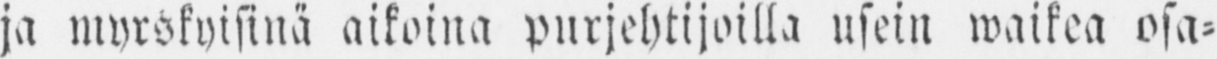ja myrskyisinä aikoina purjehtijoilla usein waikea osa-
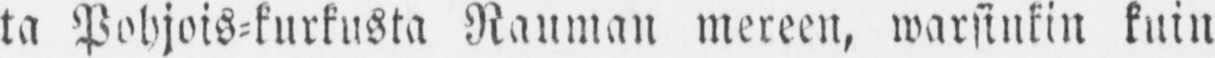ta Pohjois-kurkusta Rauman mereen, warsinkin kuin
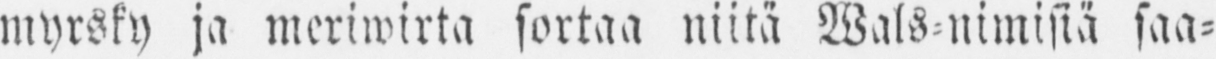myrsky ja meriwirta sortaa niitä Wals-nimisiä saa-
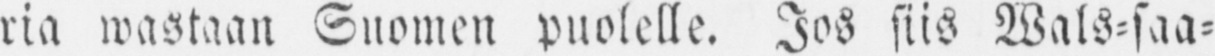ria wastaan Suomen puolelle. Jos siis Wals-saa-
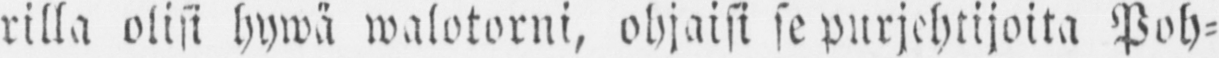rilla olisi hywä walotorni, ohjaisi se purjehtijoita Poh-
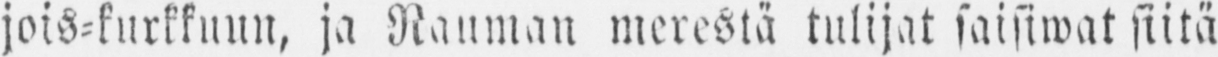jois-kurkkuun, ja Rauman merestä tulijat saisiwat siitä
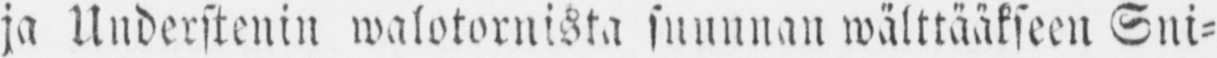ja Understenin walotornista suunnan wälttääkseen Sni-
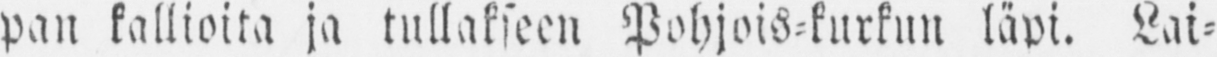pan kallioita ja tullakseen Pohjois-kurkun läpi. Lai-
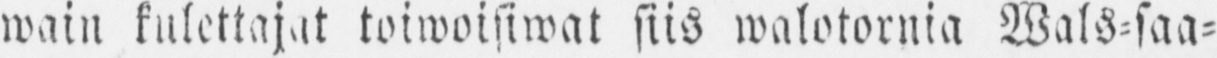wain kulettajat toiwoisiwat siis walotornia Wals-saa-
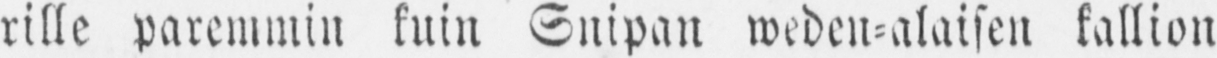rille paremmin kuin Snipan weden-alaisen kallion
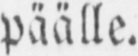päälle.
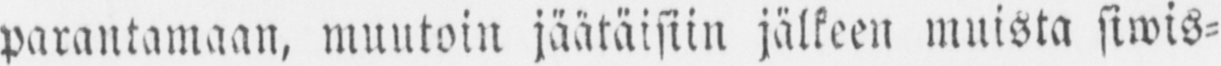parantamaan, muutoin jäätäisiin jälkeen muista siwis-
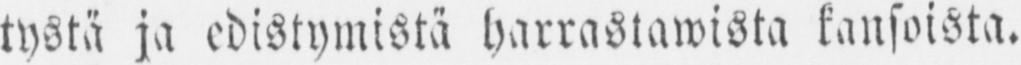tystä ja edistymistä harrastawista kansoista.
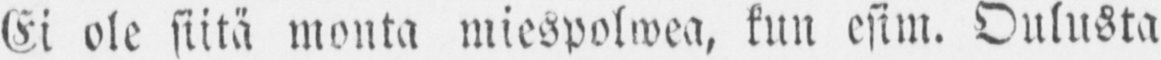Ei ole siitä monta miespolwea, kun esim. Oulusta
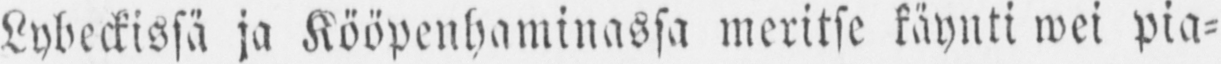Lybeckissä ja Kööpenhaminassa meritse käynti wei pia-
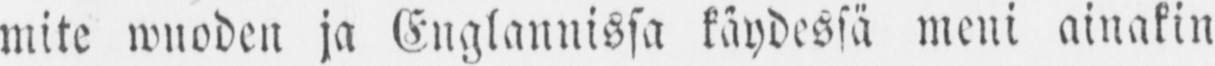mite wnoden ja Englannissa käydessä meni ainakin
